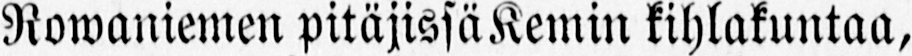Rowaniemen pitäjissä Kemin kihlakuntaa,
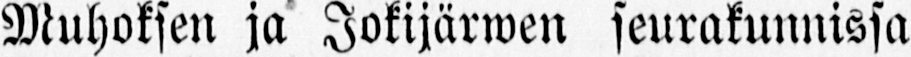Muhoksen ja Jokijärwen seurakunnissa
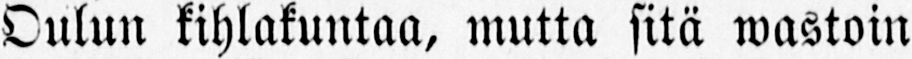Oulun kihlakuntaa, mutta sitä wastoin
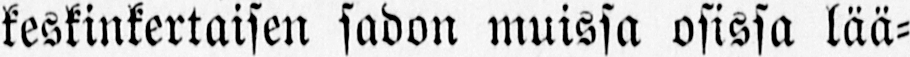keskinkertaisen sadon muissa osissa lää-
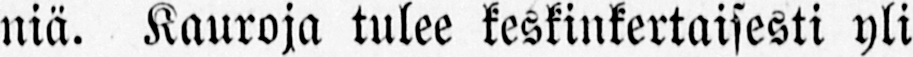niä. Kauroja tulee keskinkertaisesti yli
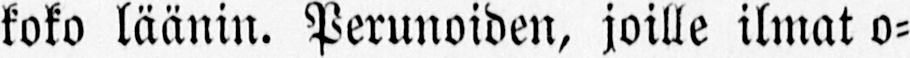koko läänin. Perunoiden, joille ilmat o-
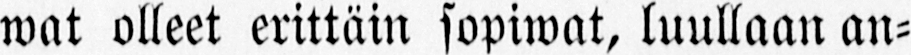wat olleet erittäin sopiwat, luullaan an-
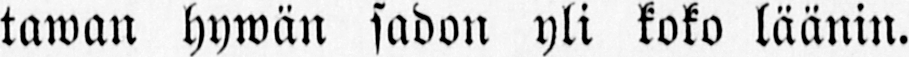tawan hywän sadon yli koko läänin.
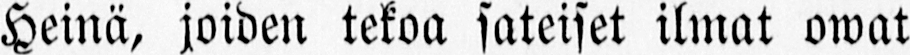Heinä, joiden tekoa sateiset ilmat owat
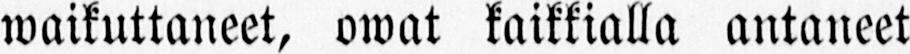waikuttaneet, owat kaikkialla antaneet
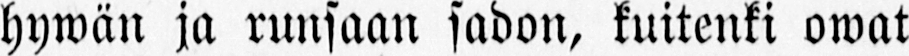hywän ja runsaan sadon, kuitenki owat
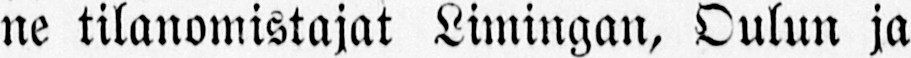ne tilanomistajat Limingan, Oulun ja
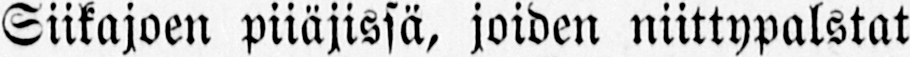Siikajoen piiäjissä, joiden niittypalstat
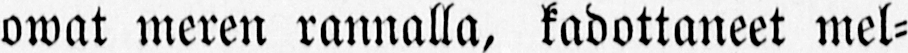owat meren rannalla, kadottaneet mel-
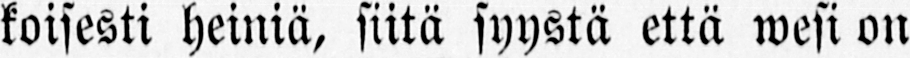koisesti heiniä, siitä syystä että wesi on
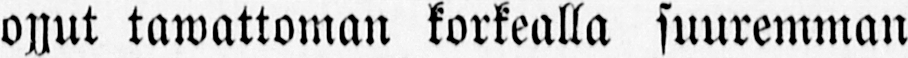ojjut tuwattoman korkealla suuremman
